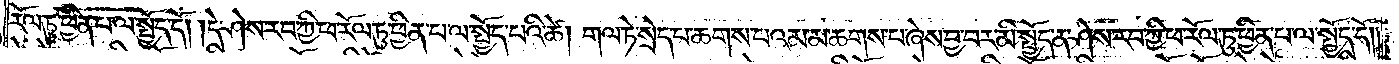རོལ་ཏུ་ཕྱིན་པ་ལ་སྤྱོད་དོ། །དེ་ཤེས་རབ་ཀྱི་ཕ་རོལ་ཏུ་ཕྱིན་པ་ལ་སྤྱོད་པའི་ཚེ། གལ་ཏེ་སྲེད་པ་ཆགས་པའམ་མ་ཆགས་པ་ཞེས་བྱ་བར་མི་སྤྱོད་ན་ཤེས་རབ་ཀྱི་ཕ་རོལ་ཏུ་ཕྱིན་པ་ལ་སྤྱོད་དོ། །
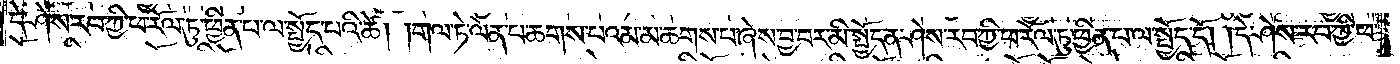དེ་ཤེས་རབ་ཀྱི་ཕ་རོལ་ཏུ་ཕྱིན་པ་ལ་སྤྱོད་པའི་ཚེ། གལ་ཏེ་ལེན་པ་ཆགས་པའམ་མ་ཆགས་པ་ཞེས་བྱ་བར་མི་སྤྱོད་ན་ཤེས་རབ་ཀྱི་ཕ་རོལ་ཏུ་ཕྱིན་པ་ལ་སྤྱོད་དོ། །དེ་ཤེས་རབ་ཀྱི་ཕ་
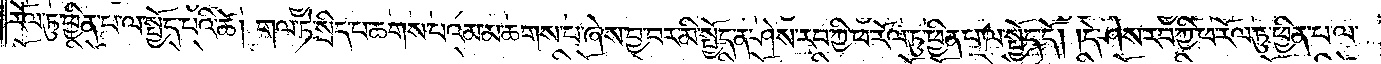རོལ་ཏུ་ཕྱིན་པ་ལ་སྤྱོད་པའི་ཚེ། གལ་ཏེ་སྲིད་པ་ཆགས་པའམ་མ་ཆགས་པ་ཞེས་བྱ་བར་མི་སྤྱོད་ན་ཤེས་རབ་ཀྱི་ཕ་རོལ་ཏུ་ཕྱིན་པ་ལ་སྤྱོད་དོ། །དེ་ཤེས་རབ་ཀྱི་ཕ་རོལ་ཏུ་ཕྱིན་པ་ལ་
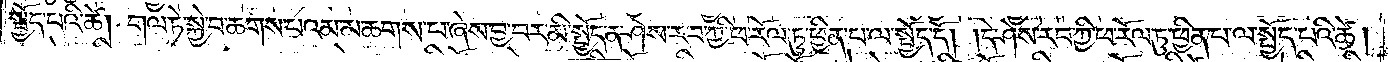སྤྱོད་པའི་ཚེ། གལ་ཏེ་སྐྱེ་བ་ཆགས་པའམ་མ་ཆགས་པ་ཞེས་བྱ་བར་མི་སྤྱོད་ན་ཤེས་རབ་ཀྱི་ཕ་རོལ་ཏུ་ཕྱིན་པ་ལ་སྤྱོད་དོ། །དེ་ཤེས་རབ་ཀྱི་ཕ་རོལ་ཏུ་ཕྱིན་པ་ལ་སྤྱོད་པའི་ཚེ།
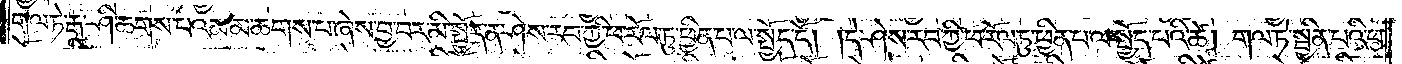གལ་ཏེ་རྒ་ཤི་ཆགས་པའམ་མ་ཆགས་པ་ཞེས་བྱ་བར་མི་སྤྱོད་ན་ཤེས་རབ་ཀྱི་ཕ་རོལ་ཏུ་ཕྱིན་པ་ལ་སྤྱོད་དོ། །དེ་ཤེས་རབ་ཀྱི་ཕ་རོལ་ཏུ་ཕྱིན་པ་ལ་སྤྱོད་པའི་ཚེ། གལ་ཏེ་སྦྱིན་པའི་ཕ་
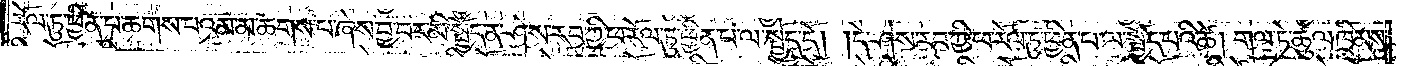རོལ་ཏུ་ཕྱིན་པ་ཆགས་པའམ་མ་ཆགས་པ་ཞེས་བྱ་བར་མི་སྤྱོད་ན་ཤེས་རབ་ཀྱི་ཕ་རོལ་ཏུ་ཕྱིན་པ་ལ་སྤྱོད་དོ། །དེ་ཤེས་རབ་ཀྱི་ཕ་རོལ་ཏུ་ཕྱིན་པ་ལ་སྤྱོད་པའི་ཚེ། གལ་ཏེ་ཚུལ་ཁྲིམས་
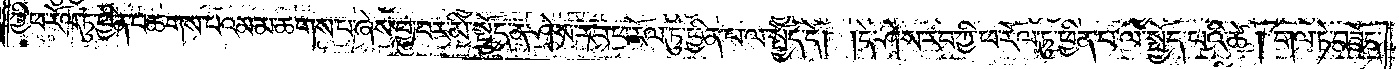ཀྱི་ཕ་རོལ་ཏུ་ཕྱིན་པ་ཆགས་པའམ་མ་ཆགས་པ་ཞེས་བྱ་བར་མི་སྤྱོད་ན་ཤེས་རབ་ཀྱི་ཕ་རོལ་ཏུ་ཕྱིན་པ་ལ་སྤྱོད་དོ། །དེ་ཤེས་རབ་ཀྱི་ཕ་རོལ་ཏུ་ཕྱིན་པ་ལ་སྤྱོད་པའི་ཚེ། གལ་ཏེ་བཟོད་
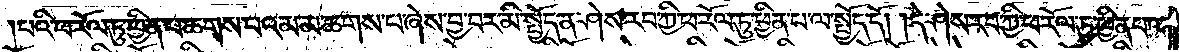པའི་ཕ་རོལ་ཏུ་ཕྱིན་པ་ཆགས་པའམ་མ་ཆགས་པ་ཞེས་བྱ་བར་མི་སྤྱོད་ན་ཤེས་རབ་ཀྱི་ཕ་རོལ་ཏུ་ཕྱིན་པ་ལ་སྤྱོད་དོ། །དེ་ཤེས་རབ་ཀྱི་ཕ་རོལ་ཏུ་ཕྱིན་པ་ལ་
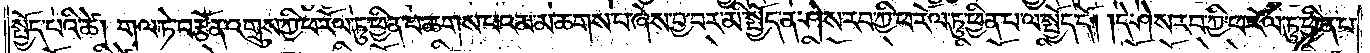སྤྱོད་པའི་ཚེ། གལ་ཏེ་བརྩོན་འགྲུས་ཀྱི་ཕ་རོལ་ཏུ་ཕྱིན་པ་ཆགས་པའམ་མ་ཆགས་པ་ཞེས་བྱ་བར་མི་སྤྱོད་ན་ཤེས་རབ་ཀྱི་ཕ་རོལ་ཏུ་ཕྱིན་པ་ལ་སྤྱོད་དོ། །དེ་ཤེས་རབ་ཀྱི་ཕ་རོལ་ཏུ་ཕྱིན་པ་
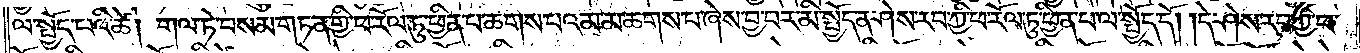ལ་སྤྱོད་པའི་ཚེ། གལ་ཏེ་བསམ་གཏན་གྱི་ཕ་རོལ་ཏུ་ཕྱིན་པ་ཆགས་པའམ་མ་ཆགས་པ་ཞེས་བྱ་བར་མི་སྤྱོད་ན་ཤེས་རབ་ཀྱི་ཕ་རོལ་ཏུ་ཕྱིན་པ་ལ་སྤྱོད་དོ། །དེ་ཤེས་རབ་ཀྱི་ཕ་
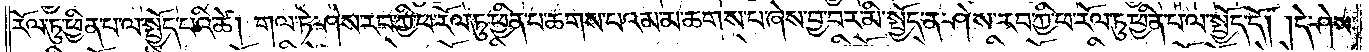རོལ་ཏུ་ཕྱིན་པ་ལ་སྤྱོད་པའི་ཚེ། གལ་ཏེ་ཤེས་རབ་ཀྱི་ཕ་རོལ་ཏུ་ཕྱིན་པ་ཆགས་པའམ་མ་ཆགས་པ་ཞེས་བྱ་བར་མི་སྤྱོད་ན་ཤེས་རབ་ཀྱི་ཕ་རོལ་ཏུ་ཕྱིན་པ་ལ་སྤྱོད་དོ། །དེ་ཤེས་
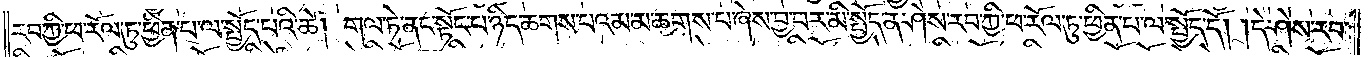རབ་ཀྱི་ཕ་རོལ་ཏུ་ཕྱིན་པ་ལ་སྤྱོད་པའི་ཚེ། གལ་ཏེ་ནང་སྟོང་པ་ཉིད་ཆགས་པའམ་མ་ཆགས་པ་ཞེས་བྱ་བར་མི་སྤྱོད་ན་ཤེས་རབ་ཀྱི་ཕ་རོལ་ཏུ་ཕྱིན་པ་ལ་སྤྱོད་དོ། །དེ་ཤེས་རབ་
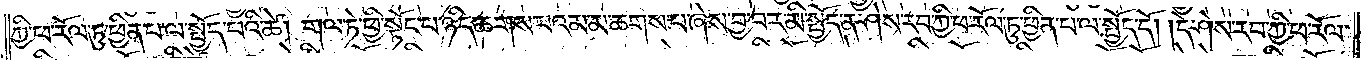ཀྱི་ཕ་རོལ་ཏུ་ཕྱིན་པ་ལ་སྤྱོད་པའི་ཚེ། གལ་ཏེ་ཕྱི་སྟོང་པ་ཉིད་ཆགས་པའམ་མ་ཆགས་པ་ཞེས་བྱ་བར་མི་སྤྱོད་ན་ཤེས་རབ་ཀྱི་ཕ་རོལ་ཏུ་ཕྱིན་པ་ལ་སྤྱོད་དོ། །དེ་ཤེས་རབ་ཀྱི་ཕ་རོལ་
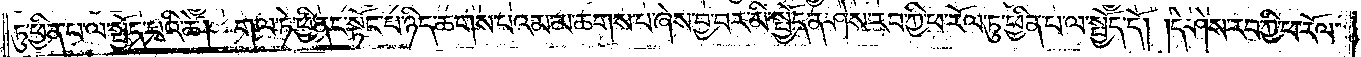ཏུ་ཕྱིན་པ་ལ་སྤྱོད་པའི་ཚེ། གལ་ཏེ་ཕྱི་ནང་སྟོང་པ་ཉིད་ཆགས་པའམ་མ་ཆགས་པ་ཞེས་བྱ་བར་མི་སྤྱོད་ན་ཤེས་རབ་ཀྱི་ཕ་རོལ་ཏུ་ཕྱིན་པ་ལ་སྤྱོད་དོ། །དེ་ཤེས་རབ་ཀྱི་ཕ་རོལ་
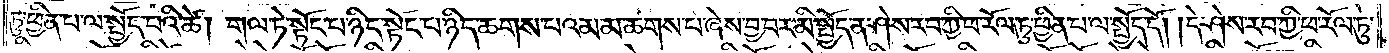ཏུ་ཕྱིན་པ་ལ་སྤྱོད་པའི་ཚེ། གལ་ཏེ་སྟོང་པ་ཉིད་སྟོང་པ་ཉིད་ཆགས་པའམ་མ་ཆགས་པ་ཞེས་བྱ་བར་མི་སྤྱོད་ན་ཤེས་རབ་ཀྱི་ཕ་རོལ་ཏུ་ཕྱིན་པ་ལ་སྤྱོད་དོ། །དེ་ཤེས་རབ་ཀྱི་ཕ་རོལ་ཏུ་
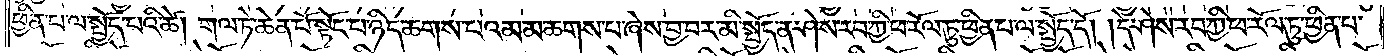ཕྱིན་པ་ལ་སྤྱོད་པའི་ཚེ། གལ་ཏེ་ཆེན་པོ་སྟོང་པ་ཉིད་ཆགས་པའམ་མ་ཆགས་པ་ཞེས་བྱ་བར་མི་སྤྱོད་ན་ཤེས་རབ་ཀྱི་ཕ་རོལ་ཏུ་ཕྱིན་པ་ལ་སྤྱོད་དོ། །དེ་ཤེས་རབ་ཀྱི་ཕ་རོལ་ཏུ་ཕྱིན་པ་
